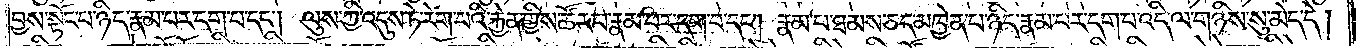བྱས་སྟོང་པ་ཉིད་རྣམ་པར་དག་པ་དང༌། ལུས་ཀྱི་འདུས་ཏེ་རེག་པའི་རྐྱེན་གྱིས་ཚོར་བ་རྣམ་པར་དག་པ་དང༌། རྣམ་པ་ཐམས་ཅད་མཁྱེན་པ་ཉིད་རྣམ་པར་དག་པ་འདི་ལ་གཉིས་སུ་མེད་དེ།
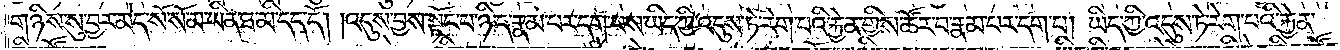གཉིས་སུ་བྱར་མེད་སོ་སོ་མ་ཡིན་ཐ་མི་དད་དོ། །འདུས་བྱས་སྟོང་པ་ཉིད་རྣམ་པར་དག་པས་ཡིད་ཀྱི་འདུས་ཏེ་རེག་པའི་རྐྱེན་གྱིས་ཚོར་བ་རྣམ་པར་དག་པ། ཡིད་ཀྱི་འདུས་ཏེ་རེག་པའི་རྐྱེན་
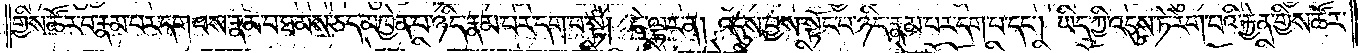གྱིས་ཚོར་བ་རྣམ་པར་དག་པས་རྣམ་པ་ཐམས་ཅད་མཁྱེན་པ་ཉིད་རྣམ་པར་དག་པ་སྟེ། དེ་ལྟར་ན། འདུས་བྱས་སྟོང་པ་ཉིད་རྣམ་པར་དག་པ་དང༌། ཡིད་ཀྱི་འདུས་ཏེ་རེག་པའི་རྐྱེན་གྱིས་ཚོར་
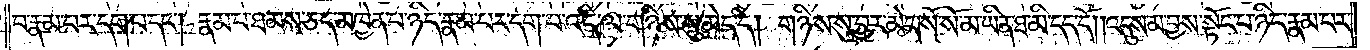བ་རྣམ་པར་དག་པ་དང༌། རྣམ་པ་ཐམས་ཅད་མཁྱེན་པ་ཉིད་རྣམ་པར་དག་པ་འདི་ལ་གཉིས་སུ་མེད་དེ། གཉིས་སུ་བྱར་མེད་སོ་སོ་མ་ཡིན་ཐ་མི་དད་དོ། །འདུས་མ་བྱས་སྟོང་པ་ཉིད་རྣམ་པར་
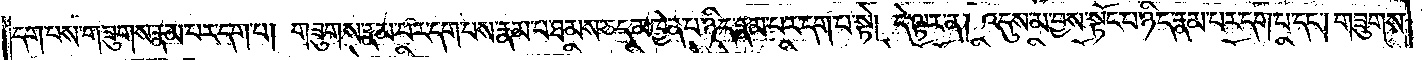དག་པས་གཟུགས་རྣམ་པར་དག་པ། གཟུགས་རྣམ་པར་དག་པས་རྣམ་པ་ཐམས་ཅད་མཁྱེན་པ་ཉིད་རྣམ་པར་དག་པ་སྟེ། དེ་ལྟར་ན། འདུས་མ་བྱས་སྟོང་པ་ཉིད་རྣམ་པར་དག་པ་དང༌། གཟུགས་
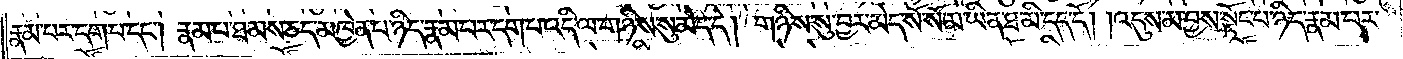རྣམ་པར་དག་པ་དང༌། རྣམ་པ་ཐམས་ཅད་མཁྱེན་པ་ཉིད་རྣམ་པར་དག་པ་འདི་ལ་གཉིས་སུ་མེད་དེ། གཉིས་སུ་བྱར་མེད་སོ་སོ་མ་ཡིན་ཐ་མི་དད་དོ། །འདུས་མ་བྱས་སྟོང་པ་ཉིད་རྣམ་པར་
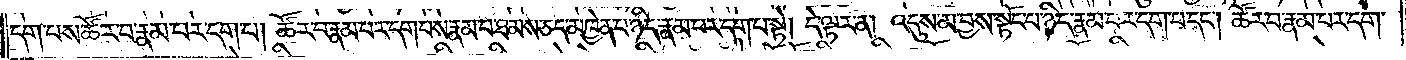དག་པས་ཚོར་བ་རྣམ་པར་དག་པ། ཚོར་བ་རྣམ་པར་དག་པས་རྣམ་པ་ཐམས་ཅད་མཁྱེན་པ་ཉིད་རྣམ་པར་དག་པ་སྟེ། དེ་ལྟར་ན། འདུས་མ་བྱས་སྟོང་པ་ཉིད་རྣམ་པར་དག་པ་དང༌། ཚོར་བ་རྣམ་པར་དག་
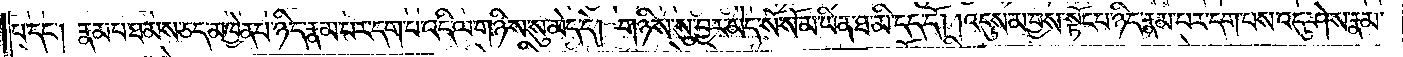པ་དང༌། རྣམ་པ་ཐམས་ཅད་མཁྱེན་པ་ཉིད་རྣམ་པར་དག་པ་འདི་ལ་གཉིས་སུ་མེད་དེ། གཉིས་སུ་བྱར་མེད་སོ་སོ་མ་ཡིན་ཐ་མི་དད་དོ། །འདུས་མ་བྱས་སྟོང་པ་ཉིད་རྣམ་པར་དག་པས་འདུ་ཤེས་རྣམ་
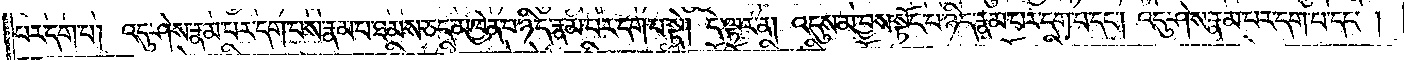པར་དག་པ། འདུ་ཤེས་རྣམ་པར་དག་པས་རྣམ་པ་ཐམས་ཅད་མཁྱེན་པ་ཉིད་རྣམ་པར་དག་པ་སྟེ། དེ་ལྟར་ན། འདུས་མ་བྱས་སྟོང་པ་ཉིད་རྣམ་པར་དག་པ་དང༌། འདུ་ཤེས་རྣམ་པར་དག་པ་དང༌།
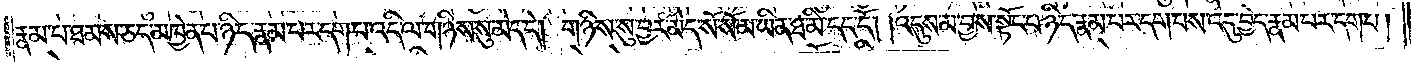རྣམ་པ་ཐམས་ཅད་མཁྱེན་པ་ཉིད་རྣམ་པར་དག་པ་འདི་ལ་གཉིས་སུ་མེད་དེ། གཉིས་སུ་བྱར་མེད་སོ་སོ་མ་ཡིན་ཐ་མི་དད་དོ། །འདུས་མ་བྱས་སྟོང་པ་ཉིད་རྣམ་པར་དག་པས་འདུ་བྱེད་རྣམ་པར་དག་པ།
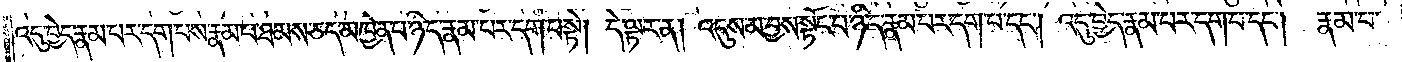འདུ་བྱེད་རྣམ་པར་དག་པས་རྣམ་པ་ཐམས་ཅད་མཁྱེན་པ་ཉིད་རྣམ་པར་དག་པ་སྟེ། དེ་ལྟར་ན། འདུས་མ་བྱས་སྟོང་པ་ཉིད་རྣམ་པར་དག་པ་དང༌། འདུ་བྱེད་རྣམ་པར་དག་པ་དང༌། རྣམ་པ་
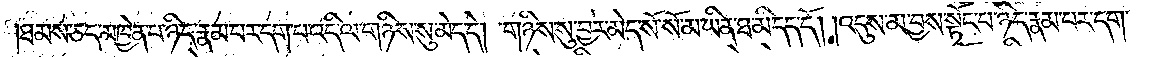ཐམས་ཅད་མཁྱེན་པ་ཉིད་རྣམ་པར་དག་པ་འདི་ལ་གཉིས་སུ་མེད་དེ། གཉིས་སུ་བྱར་མེད་སོ་སོ་མ་ཡིན་ཐ་མི་དད་དོ། །འདུས་མ་བྱས་སྟོང་པ་ཉིད་རྣམ་པར་དག་
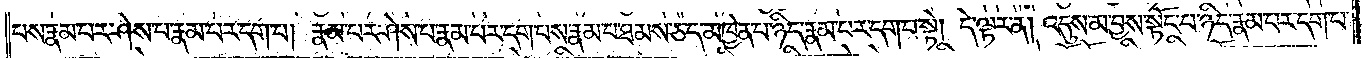པས་རྣམ་པར་ཤེས་པ་རྣམ་པར་དག་པ། རྣམ་པར་ཤེས་པ་རྣམ་པར་དག་པས་རྣམ་པ་ཐམས་ཅད་མཁྱེན་པ་ཉིད་རྣམ་པར་དག་པ་སྟེ། དེ་ལྟར་ན། འདུས་མ་བྱས་སྟོང་པ་ཉིད་རྣམ་པར་དག་པ་
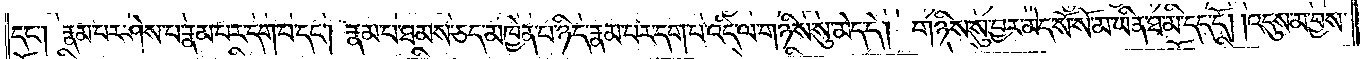དང༌། རྣམ་པར་ཤེས་པ་རྣམ་པར་དག་པ་དང༌། རྣམ་པ་ཐམས་ཅད་མཁྱེན་པ་ཉིད་རྣམ་པར་དག་པ་འདི་ལ་གཉིས་སུ་མེད་དེ། གཉིས་སུ་བྱར་མེད་སོ་སོ་མ་ཡིན་ཐ་མི་དད་དོ། །འདུས་མ་བྱས་
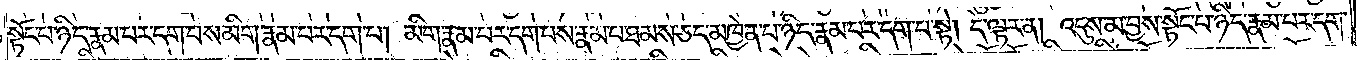སྟོང་པ་ཉིད་རྣམ་པར་དག་པས་མིག་རྣམ་པར་དག་པ། མིག་རྣམ་པར་དག་པས་རྣམ་པ་ཐམས་ཅད་མཁྱེན་པ་ཉིད་རྣམ་པར་དག་པ་སྟེ། དེ་ལྟར་ན། འདུས་མ་བྱས་སྟོང་པ་ཉིད་རྣམ་པར་དག་
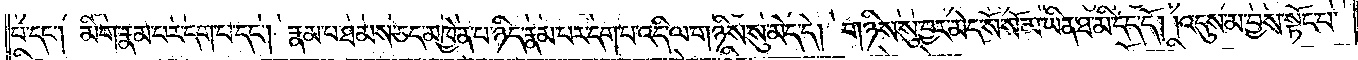པ་དང༌། མིག་རྣམ་པར་དག་པ་དང༌། རྣམ་པ་ཐམས་ཅད་མཁྱེན་པ་ཉིད་རྣམ་པར་དག་པ་འདི་ལ་གཉིས་སུ་མེད་དེ། གཉིས་སུ་བྱར་མེད་སོ་སོ་མ་ཡིན་ཐ་མི་དད་དོ། །འདུས་མ་བྱས་སྟོང་པ་
